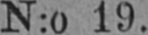N:o 19.
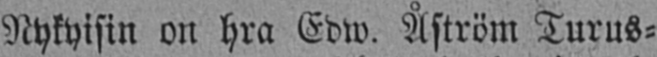Nykyisin on hra Edw. Åström Turus-
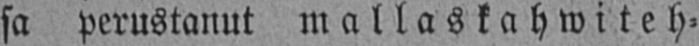sa perustanut mallaskahwiteh-
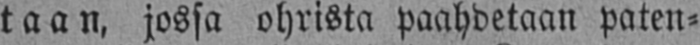taan, jossa ohrista paahdetaan paten-
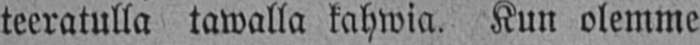teeratulla tawalla kahwia. Kun olemme
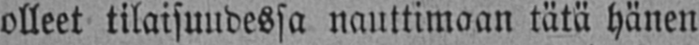olleet tilaisuudessa nauttimaan tätä hänen
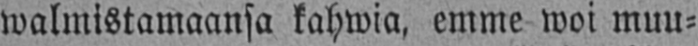walmistamaansa kahwia, emme woi muu-
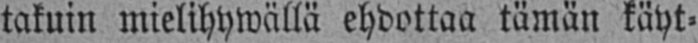takuin mielihywällä ehdottaa tämän käyt-
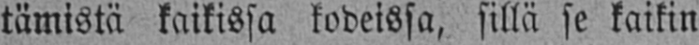tämistä kaikissa kodeissa, sillä se kaikin
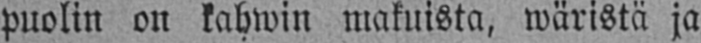puolin on kahwin makuista, wäristä ja
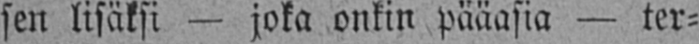sen lisäksi -joka onkin pääasia — ter-
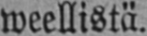weellistä.
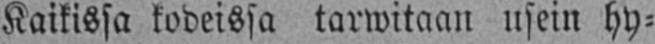Kaikissa kodeissa tarwitaan usein hy-
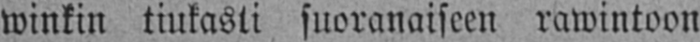winkin tiukasti suoranaiseen rawintoon
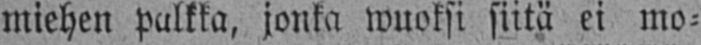miehen pulkka, jonka wuoksi siitä ei mo-
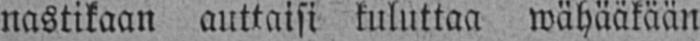nastikaan auttaisi kuluttaa wähääkään
